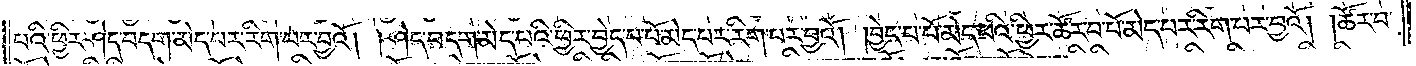པའི་ཕྱིར་ཤེད་བདག་མེད་པར་རིག་པར་བྱའོ། །ཤེད་བདག་མེད་པའི་ཕྱིར་བྱེད་པ་པོ་མེད་པར་རིག་པར་བྱའོ། །བྱེད་པ་པོ་མེད་པའི་ཕྱིར་ཚོར་བ་པོ་མེད་པར་རིག་པར་བྱའོ། །ཚོར་བ་
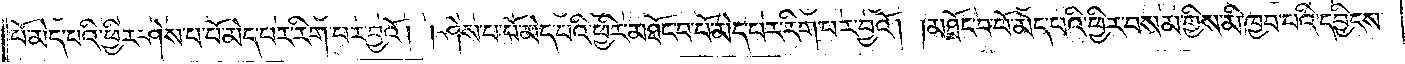པོ་མེད་པའི་ཕྱིར་ཤེས་པ་པོ་མེད་པར་རིག་པར་བྱའོ། །ཤེས་པ་པོ་མེད་པའི་ཕྱིར་མཐོང་བ་པོ་མེད་པར་རིག་པར་བྱའོ། །མཐོང་བ་པོ་མེད་པའི་ཕྱིར་བསམ་གྱིས་མི་ཁྱབ་པའི་དབྱིངས་
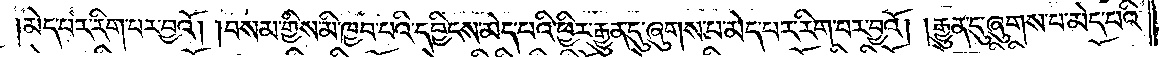མེད་པར་རིག་པར་བྱའོ། །བསམ་གྱིས་མི་ཁྱབ་པའི་དབྱིངས་མེད་པའི་ཕྱིར་རྒྱུན་དུ་ཞུགས་པ་མེད་པར་རིག་པར་བྱའོ། །རྒྱུན་དུ་ཞུགས་པ་མེད་པའི་
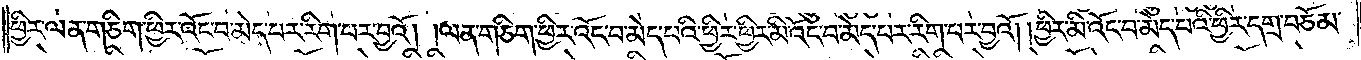ཕྱིར་ལན་ཅིག་ཕྱིར་འོང་བ་མེད་པར་རིག་པར་བྱའོ། །ལན་ཅིག་ཕྱིར་འོང་བ་མེད་པའི་ཕྱིར་ཕྱིར་མི་འོང་བ་མེད་པར་རིག་པར་བྱའོ། །ཕྱིར་མི་འོང་བ་མེད་པའི་ཕྱིར་དགྲ་བཅོམ་
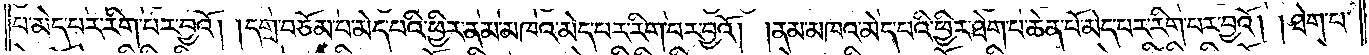པ་མེད་པར་རིག་པར་བྱའོ། །དགྲ་བཅོམ་པ་མེད་པའི་ཕྱིར་ནམ་མཁའ་མེད་པར་རིག་པར་བྱའོ། །ནམ་མཁའ་མེད་པའི་ཕྱིར་ཐེག་པ་ཆེན་པོ་མེད་པར་རིག་པར་བྱའོ། །ཐེག་པ་
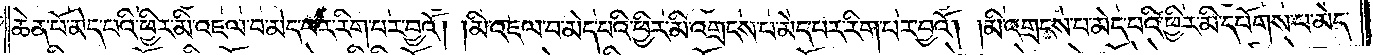ཆེན་པོ་མེད་པའི་ཕྱིར་མི་འཇལ་བ་མེད་པར་རིག་པར་བྱའོ། །མི་འཇལ་བ་མེད་པའི་ཕྱིར་མི་འགྲངས་པ་མེད་པར་རིག་པར་བྱའོ། །མི་འགྲངས་པ་མེད་པའི་ཕྱིར་མི་དཔོགས་པ་མེད་
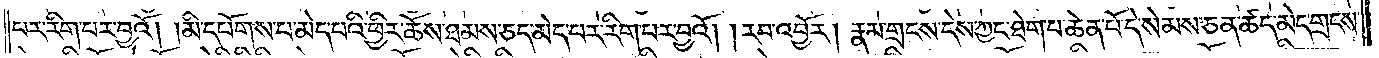པར་རིག་པར་བྱའོ། །མི་དཔོགས་པ་མེད་པའི་ཕྱིར་ཆོས་ཐམས་ཅད་མེད་པར་རིག་པར་བྱའོ། །རབ་འབྱོར། རྣམ་གྲངས་དེས་ཀྱང་ཐེག་པ་ཆེན་པོ་དེ་སེམས་ཅན་ཚད་མེད་གྲངས་
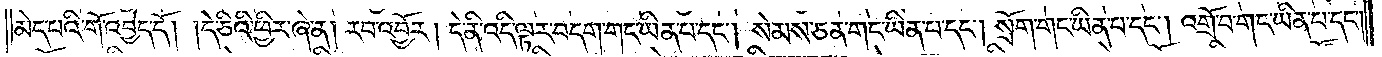མེད་པའི་གོ་འབྱེད་དོ། །དེ་ཅིའི་ཕྱིར་ཞེ་ན། རབ་འབྱོར། དེ་ནི་འདི་ལྟར་བདག་གང་ཡིན་པ་དང༌། སེམས་ཅན་གང་ཡིན་པ་དང༌། སྲོག་གང་ཡིན་པ་དང༌། འགྲོ་བ་གང་ཡིན་པ་དང༌།
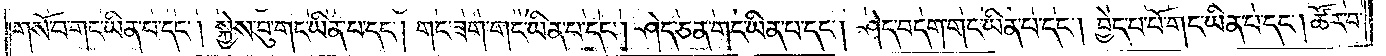གསོ་བ་གང་ཡིན་པ་དང༌། སྐྱེས་བུ་གང་ཡིན་པ་དང༌། གང་ཟག་གང་ཡིན་པ་དང༌། ཤེད་ཅན་གང་ཡིན་པ་དང༌། ཤེད་བདག་གང་ཡིན་པ་དང༌། བྱེད་པ་པོ་གང་ཡིན་པ་དང༌། ཚོར་བ་
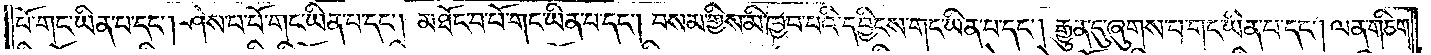པོ་གང་ཡིན་པ་དང༌། ཤེས་པ་པོ་གང་ཡིན་པ་དང༌། མཐོང་བ་པོ་གང་ཡིན་པ་དང༌། བསམ་གྱིས་མི་ཁྱབ་པའི་དབྱངས་གང་ཡིན་པ་དང༌། རྒྱུན་དུ་ཞུགས་པ་གང་ཡིན་པ་དང༌། ལན་ཅིག་
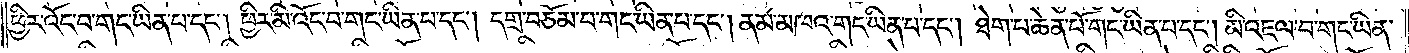ཕྱིར་འོང་བ་གང་ཡིན་པ་དང༌། ཕྱིར་མི་འོང་བ་གང་ཡིན་པ་དང༌། དགྲ་བཅོམ་པ་གང་ཡིན་པ་དང༌། ནམ་མཁའ་གང་ཡིན་པ་དང༌། ཐེག་པ་ཆེན་པོ་གང་ཡིན་པ་དང༌། མི་འཇལ་བ་གང་ཡིན་
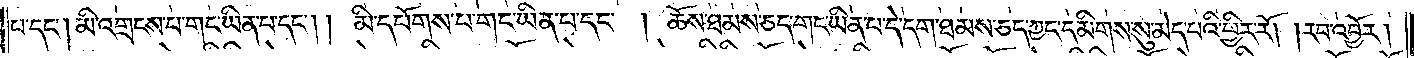པ་དང༌། མི་འགྲངས་པ་གང་ཡིན་པ་དང༌། མི་དཔོགས་པ་གང་ཡིན་པ་དང༌། ཆོས་ཐམས་ཅད་གང་ཡིན་པ་དེ་དག་ཐམས་ཅད་ཀྱང་དམིགས་སུ་མེད་པའི་ཕྱིར་རོ། །རབ་འབྱོར།
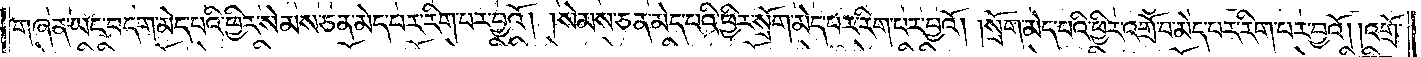གཞན་ཡང་བདག་མེད་པའི་ཕྱིར་སེམས་ཅན་མེད་པར་རིག་པར་བྱའོ། །སེམས་ཅན་མེད་པའི་ཕྱིར་སྲོག་མེད་པར་རིག་པར་བྱའོ། །སྲོག་མེད་པའི་ཕྱིར་འགྲོ་བ་མེད་པར་རིག་པར་བྱའོ། །འགྲོ་
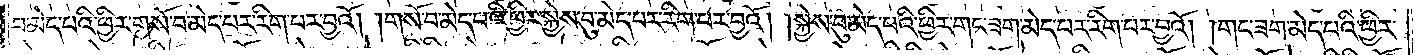བ་མེད་པའི་ཕྱིར་གསོ་བ་མེད་པར་རིག་པར་བྱའོ། །གསོ་བ་མེད་པའི་ཕྱིར་སྐྱེས་བུ་མེད་པར་རིག་པར་བྱའོ། །སྐྱེས་བུ་མེད་པའི་ཕྱིར་གང་ཟག་མེད་པར་རིག་པར་བྱའོ། །གང་ཟག་མེད་པའི་ཕྱིར་
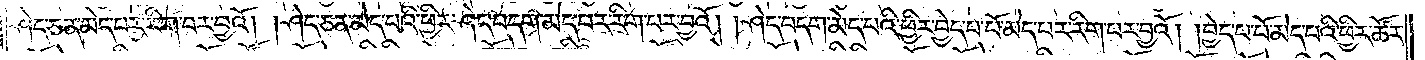ཤེད་ཅན་མེད་པར་རིག་པར་བྱའོ། །ཤེད་ཅན་མེད་པའི་ཕྱིར་ཤེད་བདག་མེད་པར་རིག་པར་བྱའོ། །ཤེད་བདག་མེད་པའི་ཕྱིར་བྱེད་པ་པོ་མེད་པར་རིག་པར་བྱའོ། །བྱེད་པ་པོ་མེད་པའི་ཕྱིར་ཚོར་
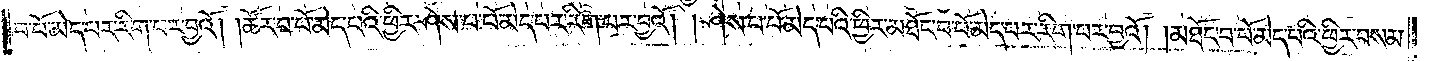བ་པོ་མེད་པར་རིག་པར་བྱའོ། །ཚོར་བ་པོ་མེད་པའི་ཕྱིར་ཤེས་པ་པོ་མེད་པར་རིག་པར་བྱའོ། །ཤེས་པ་པོ་མེད་པའི་ཕྱིར་མཐོང་བ་པོ་མེད་པར་རིག་བྱའོ། །མཐོང་བ་པོ་མེད་པའི་ཕྱིར་བསམ་
